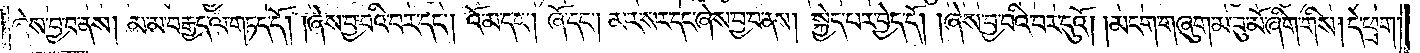ཞེས་བྱ་བ་ནས། མ་མ་བརྒྱད་ལ་གཏད་དོ། །ཞེས་བྱ་བའི་བར་དང༌། འོ་མ་དང༌། ཞོ་དང༌། མར་སར་དང་ཞེས་བྱ་བ་ནས། སྐྱེད་པར་བྱེད་དོ། །ཞེས་བྱ་བའི་བར་དུའོ། །མངག་གཞུག་མ་བུ་མོ་ཞིག་གིས། དེ་ཕྲག་
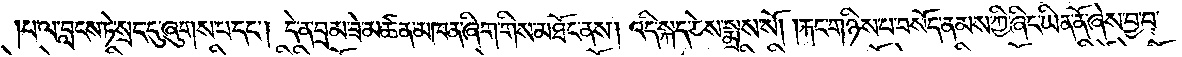པ་ལ་བླངས་ཏེ་སྲང་དུ་ཞུགས་པ་དང༌། དེ་ན་བྲམ་ཟེ་མཚན་མཁན་ཞིག་གིས་མཐོང་ནས། འདི་སྐད་ཅེས་སྨྲས་སོ། །རྐང་གཉིས་པ་བསོད་ནམས་ཀྱི་ཞིང་ཡིན་ནོ་ཞེས་བྱ་བ་
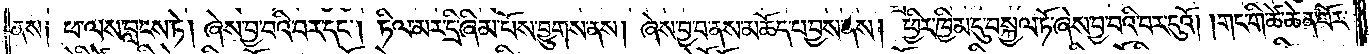ནས༑ ཕ་ལས་བླངས་ཏེ། ཞེས་བྱ་བའི་བར་དང༌། ཏིལ་མར་དྲི་ཞིམ་པོས་བྱུགས་ནས། ཞེས་བྱ་བ་ནས་མཆོད་པ་བྱས་ནས། ཕྱིར་ཁྱིམ་དུ་བསྐྱལ་ཏོ་ཞེས་བྱ་བའི་བར་དུའོ། །གང་གི་ཚེ་ཆེན་པོར་
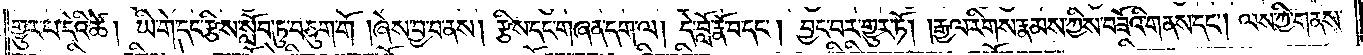གྱུར་པ་དེའི་ཚེ། ཡི་གེ་དང་རྩིས་སློབ་ཏུ་བཅུག་གོ། ཞེས་བྱ་བ་ནས། རྩིས་དང་གཞན་དག་ལ། དེ་བློ་རྣོ་བ་དང༌། བྱང་བར་གྱུར་ཏོ། །རྒྱལ་རིགས་རྣམས་ཀྱིས་བཟོའི་གནས་དང༌། ལས་ཀྱི་གནས་
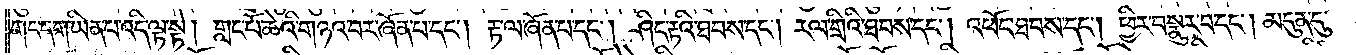གང་དག་ཡིན་པ་འདི་ལྟ་སྟེ། གླང་པོ་ཆེའི་གཉའ་བར་ཞོན་པ་དང༌། རྟ་ལ་ཞོན་པ་དང༌། ཤིང་རྟའི་ཐབས་དང༌། རལ་གྲིའི་ཐབས་དང༌། འཕོང་ཐབས་དང༌། ཕྱིར་བསྣུར་བ་དང༌། མདུན་དུ་
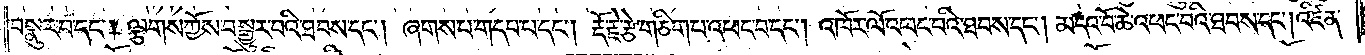བསྣུར་པ་དང༌། ལྕགས་ཀྱོས་བསྒྱུར་བའི་ཐབས་དང༌། ཞགས་པ་གདབ་པ་དང༌། རྡོ་རྗེ་རྩེ་གཅིག་པ་འཕང་བ་དང༌། འཁོར་ལོ་འཕང་བའི་ཐབས་དང༌། མདའ་བོ་ཆེ་འཕང་བའི་ཐབས་དང༌། འཛིན་
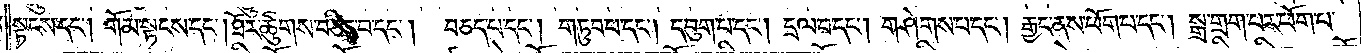སྟངས་དང༌། གོམ་སྟངས་དང༌། ཐོར་ཚུགས་བཅིང་བ་དང༌། བཅད་པ་དང༌། གཏུབ་པ་དང༌། དབུག་པ་དང༌། དྲལ་བ་དང༌། གཤེགས་པ་དང༌། རྒྱང་ནས་ཕོག་པ་དང༌། སྒྲ་གྲགས་པར་ཕོག་པ་
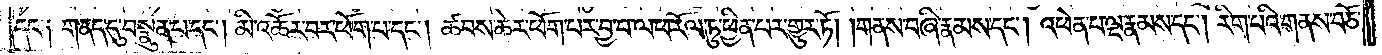དང་༑ གནད་དུ་བསྣུན་པ་དང༌། མི་འཆོར་བར་ཕོག་པ་དང༌། ཚབས་ཆེར་ཕོག་པར་བྱ་བ་ལ་ཕ་རོལ་ཏུ་ཕྱིན་པར་གྱུར་ཏོ། །གནས་བཞི་རྣམས་དང༌། འཕེན་པ་ལྔ་རྣམས་དང༌། རིག་པའི་གནས་བཅོ་
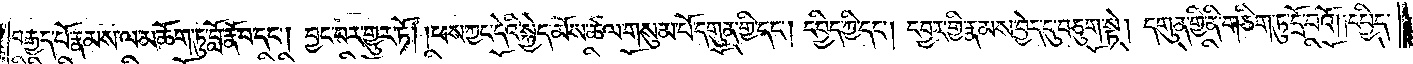བརྒྱད་པོ་རྣམས་ལ་མཆོག་ཏུ་བློ་རྣོ་བ་དང༌། བྱང་བར་གྱུར་ཏོ། །ཕས་ཀྱང་དེའི་སྐྱེད་མོས་ཚལ་གསུམ་པོ་དགུན་གྱི་དང༌། དཔྱིད་ཀྱི་དང༌། དབྱར་གྱི་རྣམས་བྱེད་དུ་བཅུག་སྟེ། དགུན་གྱི་ནི་གཅིག་ཏུ་དྲོ་བའོ། །དཔྱིད་
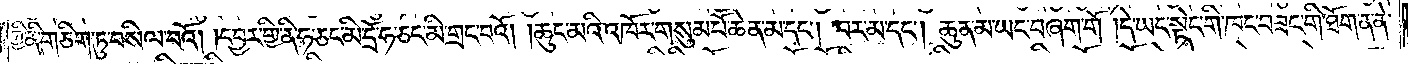ཀྱི་ནི་གཅིག་ཏུ་བསིལ་བའོ། །དབྱར་གྱི་ནི་ཧ་ཅང་མི་དྲོ་ཧ་ཅང་མི་གྲང་བའོ། །ཆུང་མའི་འཁོར་གསུམ་པོ་ཆེན་མ་དང༌། བར་མ་དང༌། ཆུན་མ་ཡང་བཞག་གོ །དེ་ཡང་སྟེང་གི་ཁང་བཟང་གི་ཐོག་ན་ནེ་
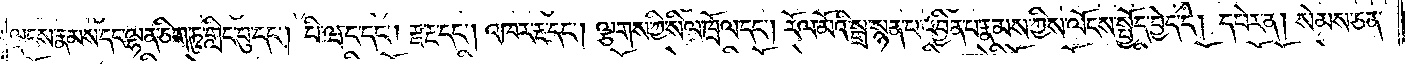ལྡངས་རྣམས་དང་ལྷན་ཅིག་ཏུ་གླིང་བུ་དང༌། པི་ཝང་དང༌། རྫ་རྔ་དང༌། འཁར་རྔ་དང༌། ལྕགས་ཀྱི་སིལ་ཁྲོལ་དང༌། རོལ་མོའི་སྒྲ་སྙན་པ་འབྱིན་པ་རྣམས་ཀྱིས་ལོངས་སྤྱོད་བྱེད་དེ། དཔེར་ན། སེམས་ཅན་
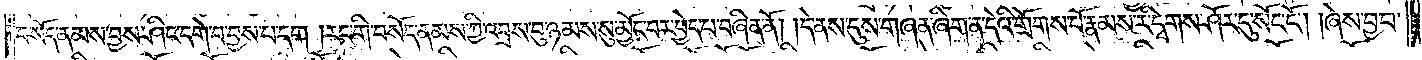བསོད་ནམས་བྱས་ཤིང་དགེ་བ་བྱས་པ་དག །རང་གི་བསོད་ནམས་ཀྱི་འབྲས་བུ་ཉམས་སུ་མྱོང་བར་བྱེད་པ་བཞིན་ནོ། །དེ་ནས་དུས་གཞན་ཞིག་ན་དེའི་གྲོགས་པོ་རྣམས་རི་དྭགས་ཤོར་དུ་སོང་ངོ༌། །ཞེས་བྱ་བ་
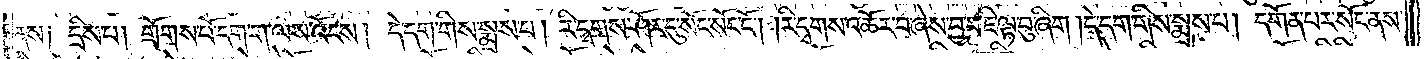ནས༑ དྲིས་པ། གྲོགས་པོ་དག་ག་ལས་འོངས། དེ་དག་གིས་སྨྲས་པ། རི་དྭགས་ཤོར་དུ་སོང་སོང་ངོ༌། །རི་དྭགས་འཚོར་བ་ཞེས་བྱ་བ་ཇི་ལྟ་བུ་ཞིག །དེ་དག་གིས་སྨྲས་པ། གདོན་པར་སོང་ནས་
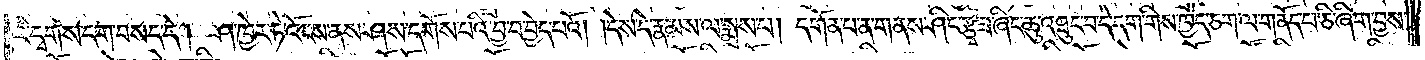རི་དྭགས་དག་བསད་དེ། ཤ་ཁྱེར་ཏེ་འོངས་ནས་ཤས་དགོས་པའི་བྱ་བ་བྱེད་པའོ། །དེས་དེ་རྣམས་ལ་སྨྲས་པ། དགོན་པ་ན་གནས་ཤིང་རྩྭ་ཟ་ཞིང་ཆུ་འཐུང་བ་དེ་དག་གིས་ཁྱེད་ཅག་ལ་གནོད་པ་ཅི་ཞིག་བྱས་
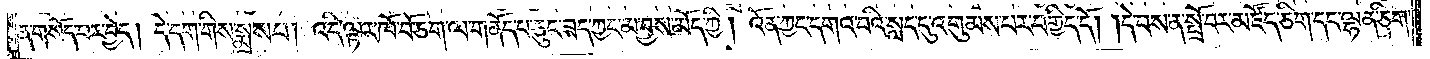ན་གསོད་པར་བྱེད། དེ་དག་གིས་སྨྲས་པ། འདི་ལྟར་ཁོ་བོ་ཅག་ལ་གནོད་པ་ཅུང་ཟད་ཀྱང་མ་བྱས་མོད་ཀྱི། འོན་ཀྱང་དགའ་བའི་སླད་དུ་འགུམས་པར་བགྱིད་དོ། །དེ་བས་ན་སྤྲོ་བར་མཛོད་ཅིག་དང་ལྷན་ཅིག་
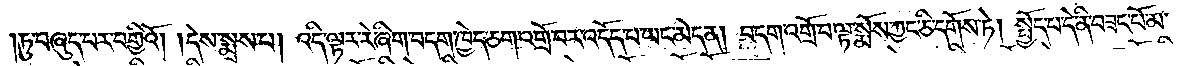ཏུ་བཞུད་པར་བགྱིའོ། །དེས་སྨྲས་པ། འདི་ལྟར་རེ་ཞིག་བདག་ཁྱེད་ཅག་འགྲོ་བར་འདོད་པ་ཡང་མེད་ན། བདག་འགྲོ་བ་ལྟ་སྨོས་ཀྱང་ཅི་དགོས་ཏེ། སྤྱོད་པ་དེ་ནི་བཟང་པོ་མ་
